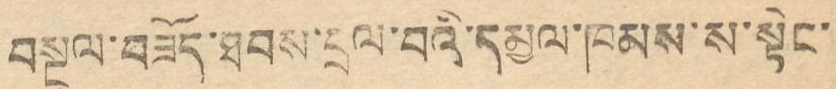བསྔལ་བཟོད་ཐབས་བྲལ་བའི་དམྱལ་ཁམས་ས་སྟེང་
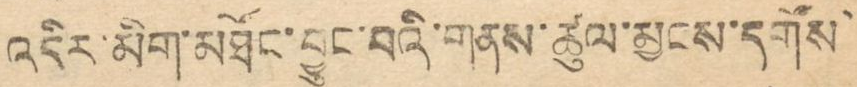འདིར་མིག་མཐོང་བྱུང་བའི་གནས་ཚུལ་མྱངས་དགོས་
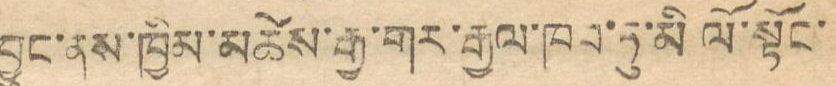བྱུང་ནས་ཁྱིམ་མཚེས་རྒྱ་གར་རྒྱལ་ཁབ་ཏུ་མི ལོ་སྟོང་
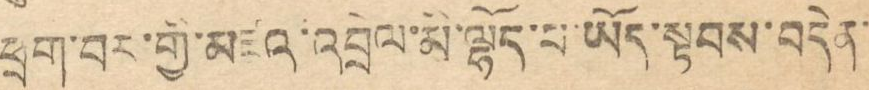ཕྲག་བར་གྱི་མཛའ་འབྲེལ་མི་ལྷོད་པ་ཡོད་སྟབས་བདེན་
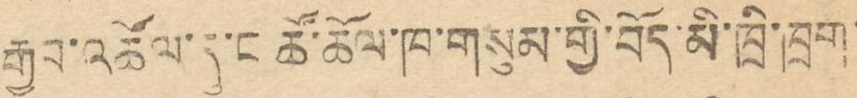རྒྱབ་འཚོལ་དུ་ང་ཚོ་ཚོལ་ཁ་གསུམ་གྱི་བོད་མི་ཁྲི་ཁྲག་
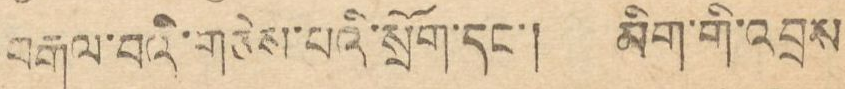བརྒལ་བའི་གཅེས་པའི་སྲོག་དང་། མིག་གི་འབྲས
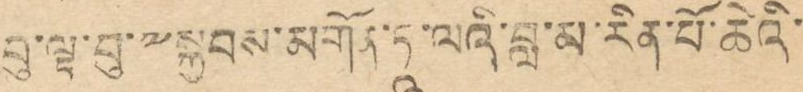བུ་ལྟ་བུ་༸སྐྱབས་མགོན་ཏཱ་ལའི་བླ་མ་རིན་པོ་ཆེའི་
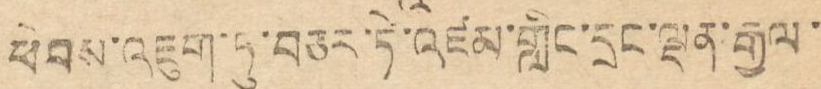ཕེབས་འཇུག་ཏུ་བཅར་ཏེ་འཛམ་གླིང་དྲང་ལྡན་རྒྱལ་
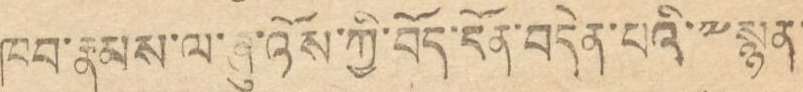ཁབ་རྣམས་ལ་ཞུ་འོས་གྱི་བོད་དོན་བདེན་པའི་༸སྙན་
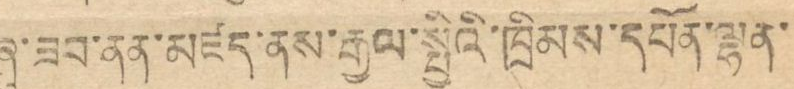ཞུ་ཟབ་ནན་མཛད་ནས་རྒྱལ་སྤྱིའི་ཁྲིམས་དཔོན་ལྷན་
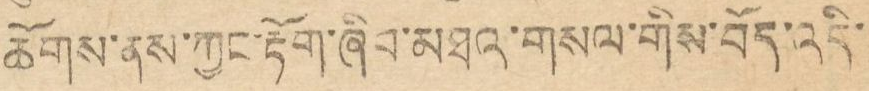ཆོགས་ནས་ཀྱང་རྟོག་ཞིབ་མཐའ་གསལ་གིས་བོད་འདི་
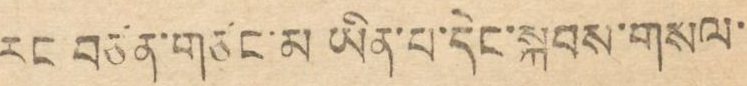རང བཙན་གཙང་མ ཡིན་པ་དེང་སྐབས་གསལ་
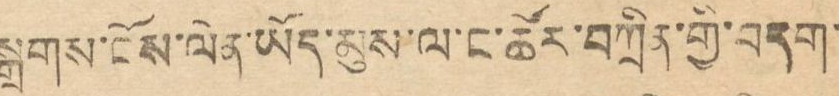སྒྲགས་ངོས་ལེན་ཡོད་མུས་ལ་ང་ཚོར་བཀྲིན་གྱི་བདག་
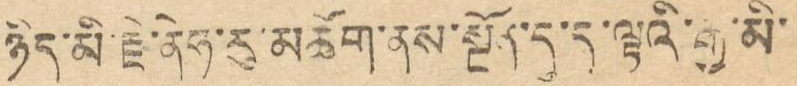ཉིད་མི་རྗེ་ནེཧ་རུ་མཆོག་ནས་སྔོན་དུ་ད་ལྟའི་རྒྱ་མི་
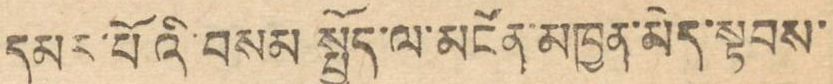དམར་པོའི་བསམ སྤྱོད་ལ་མངོན་མཁྱན་མེད་སྟབས་
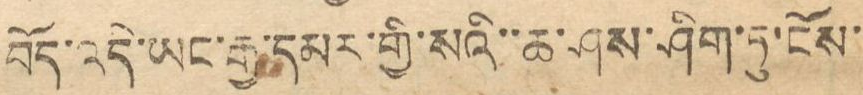བོད་འདི་ཡར་རྒྱ་དམར་གྱི་སའི་་ཆ་ཤས་ཤིག་ཏུ་ངོས་
